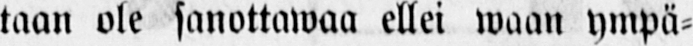taan ole sanottawaa ellei waan ympä-
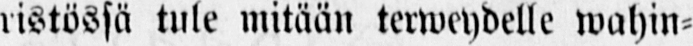ristössä tule mitään teweydelle wahin-
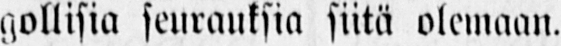gollisia seurauksia siitä olemaan.
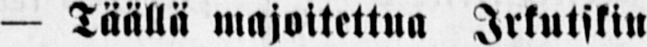— Täällä majoitettua Irkutskin
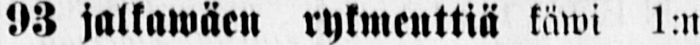93 jalkawäen rykmenttiä käwi l:n
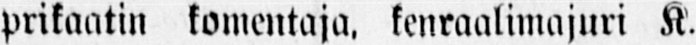prikaatin komentaja, kenraalimajuri K.
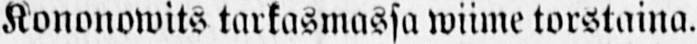Kononowits tarkasmassa wiime torstaina.
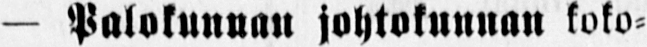— Palokunuan johtokunnan koko-
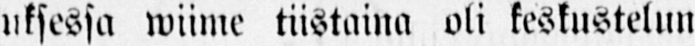uksessa wiime tiistaina oli keskustelun
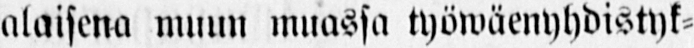alaisena muun muassa työwäenyhdistyk-
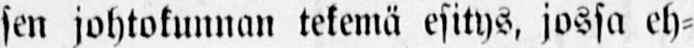sen johtokunnan tekemä esitys, jossa eh-
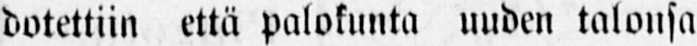dotettiin että palokunta uuden talonsa
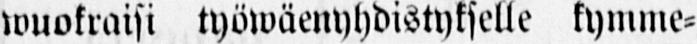wuokraisi työwäenyhdistykselle kymme-
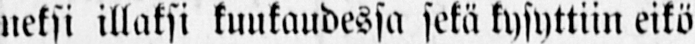neksi illaksi kuukaudessa sekä kysyttiin eikö
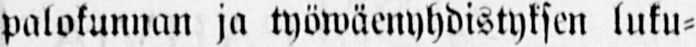palokunnan ja työwäenyhdistyksen luku-
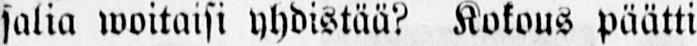salia woitaisi yhdistää? Kokous päätti
